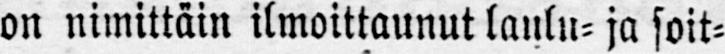on nimittäin ilmoittaunut laulu- ja soit-
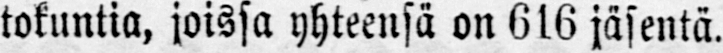tokuntia, joissa yhteensä on 616 jäsentä.
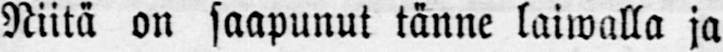Niitä on saapunut tänne laiwalla ja
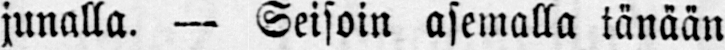junalla. — Seisoin asemalla tänään
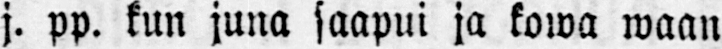j. pp. kun juna saapui ja kowa waan
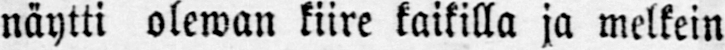näytti oleman kiire kaikilla ja melkein
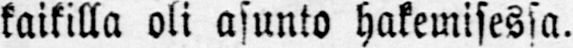kaikilla oli asunto hakemisessa.
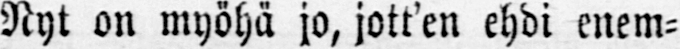Nyt on myöhä jo, jott'en ehdi enem-
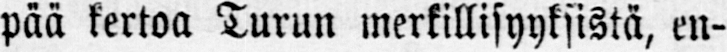pää kertoa Turun merkillisyyksistä, en-
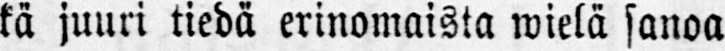kä juuri tiedä erinomaista wielä sanoa
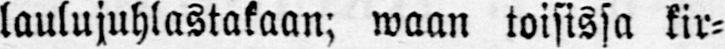laulujuhlastakaan; waan toisissa kir-
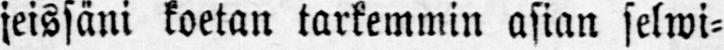jeissäni koetan tarkemmin asian selwi-
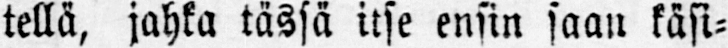tellä, jahka tässä itse ensin saan käsi-
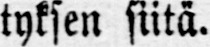tyksen siitä.
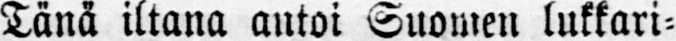Tänä iltana antoi Suomen lukkari-
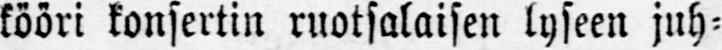kööri konsertin ruotsalaisen lyseen juh-
